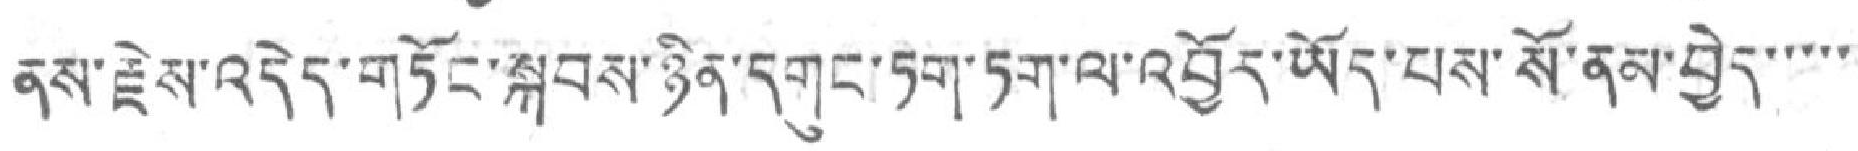ནས་རྗེས་འདེད་གཏོང་སྐབས་ཉིན་དགུང་ཏག་ཏག་ལ་འབྱོར་ཡོད་པས་སོ་ནམ་བྱེད་་་་་
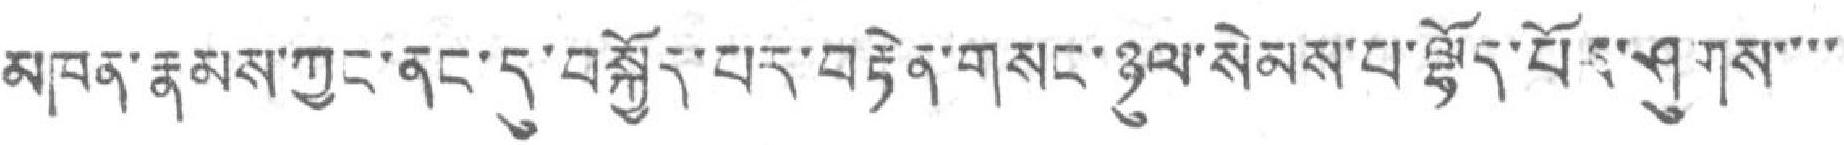མཁན་རྣམས་ཀྱང་ནང་དུ་བསྐྱོད་པར་བརྟེན་གསང་ཉུལ་སེམས་པ་ལྷོད་པོར་ཤུགས་་་་
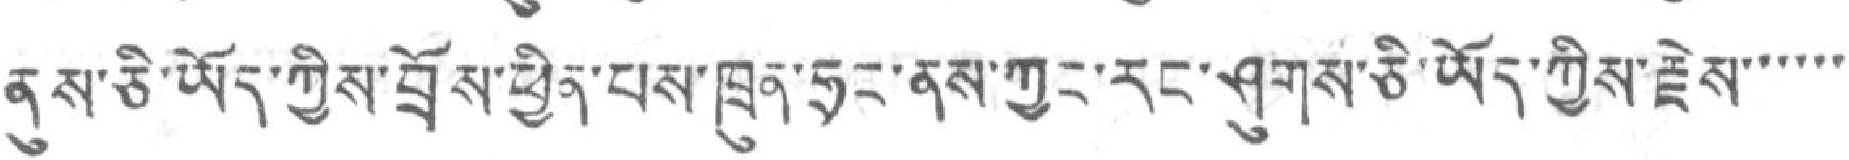ནུས་ཅི་ཡོད་ཀྱིས་བྲོས་ཕྱིན་པས་ཁྲུན་ཧྲང་ནས་ཀྱང་རང་ཤུགས་ཅི་ཡོད་ཀྱིས་རྗེས་་་་་་
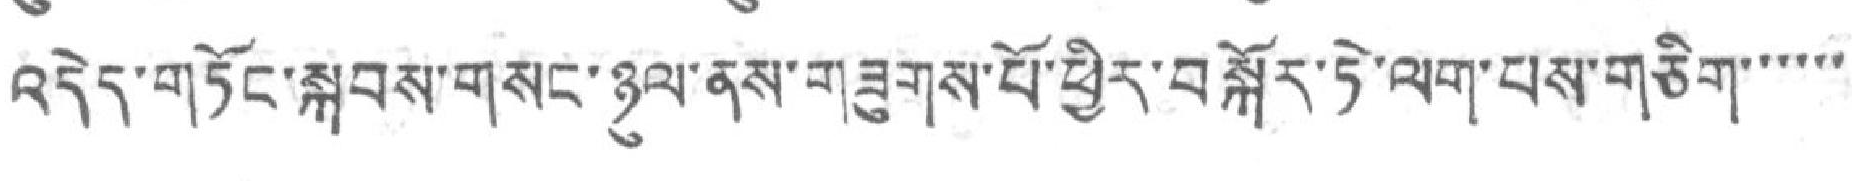འདེད་གཏོང་སྐབས་གསང་ཉུལ་ནས་གཟུགས་པོ་ཕྱིར་བསྐོར་ཏེ་ལག་པས་གཅིག་་་་་་
